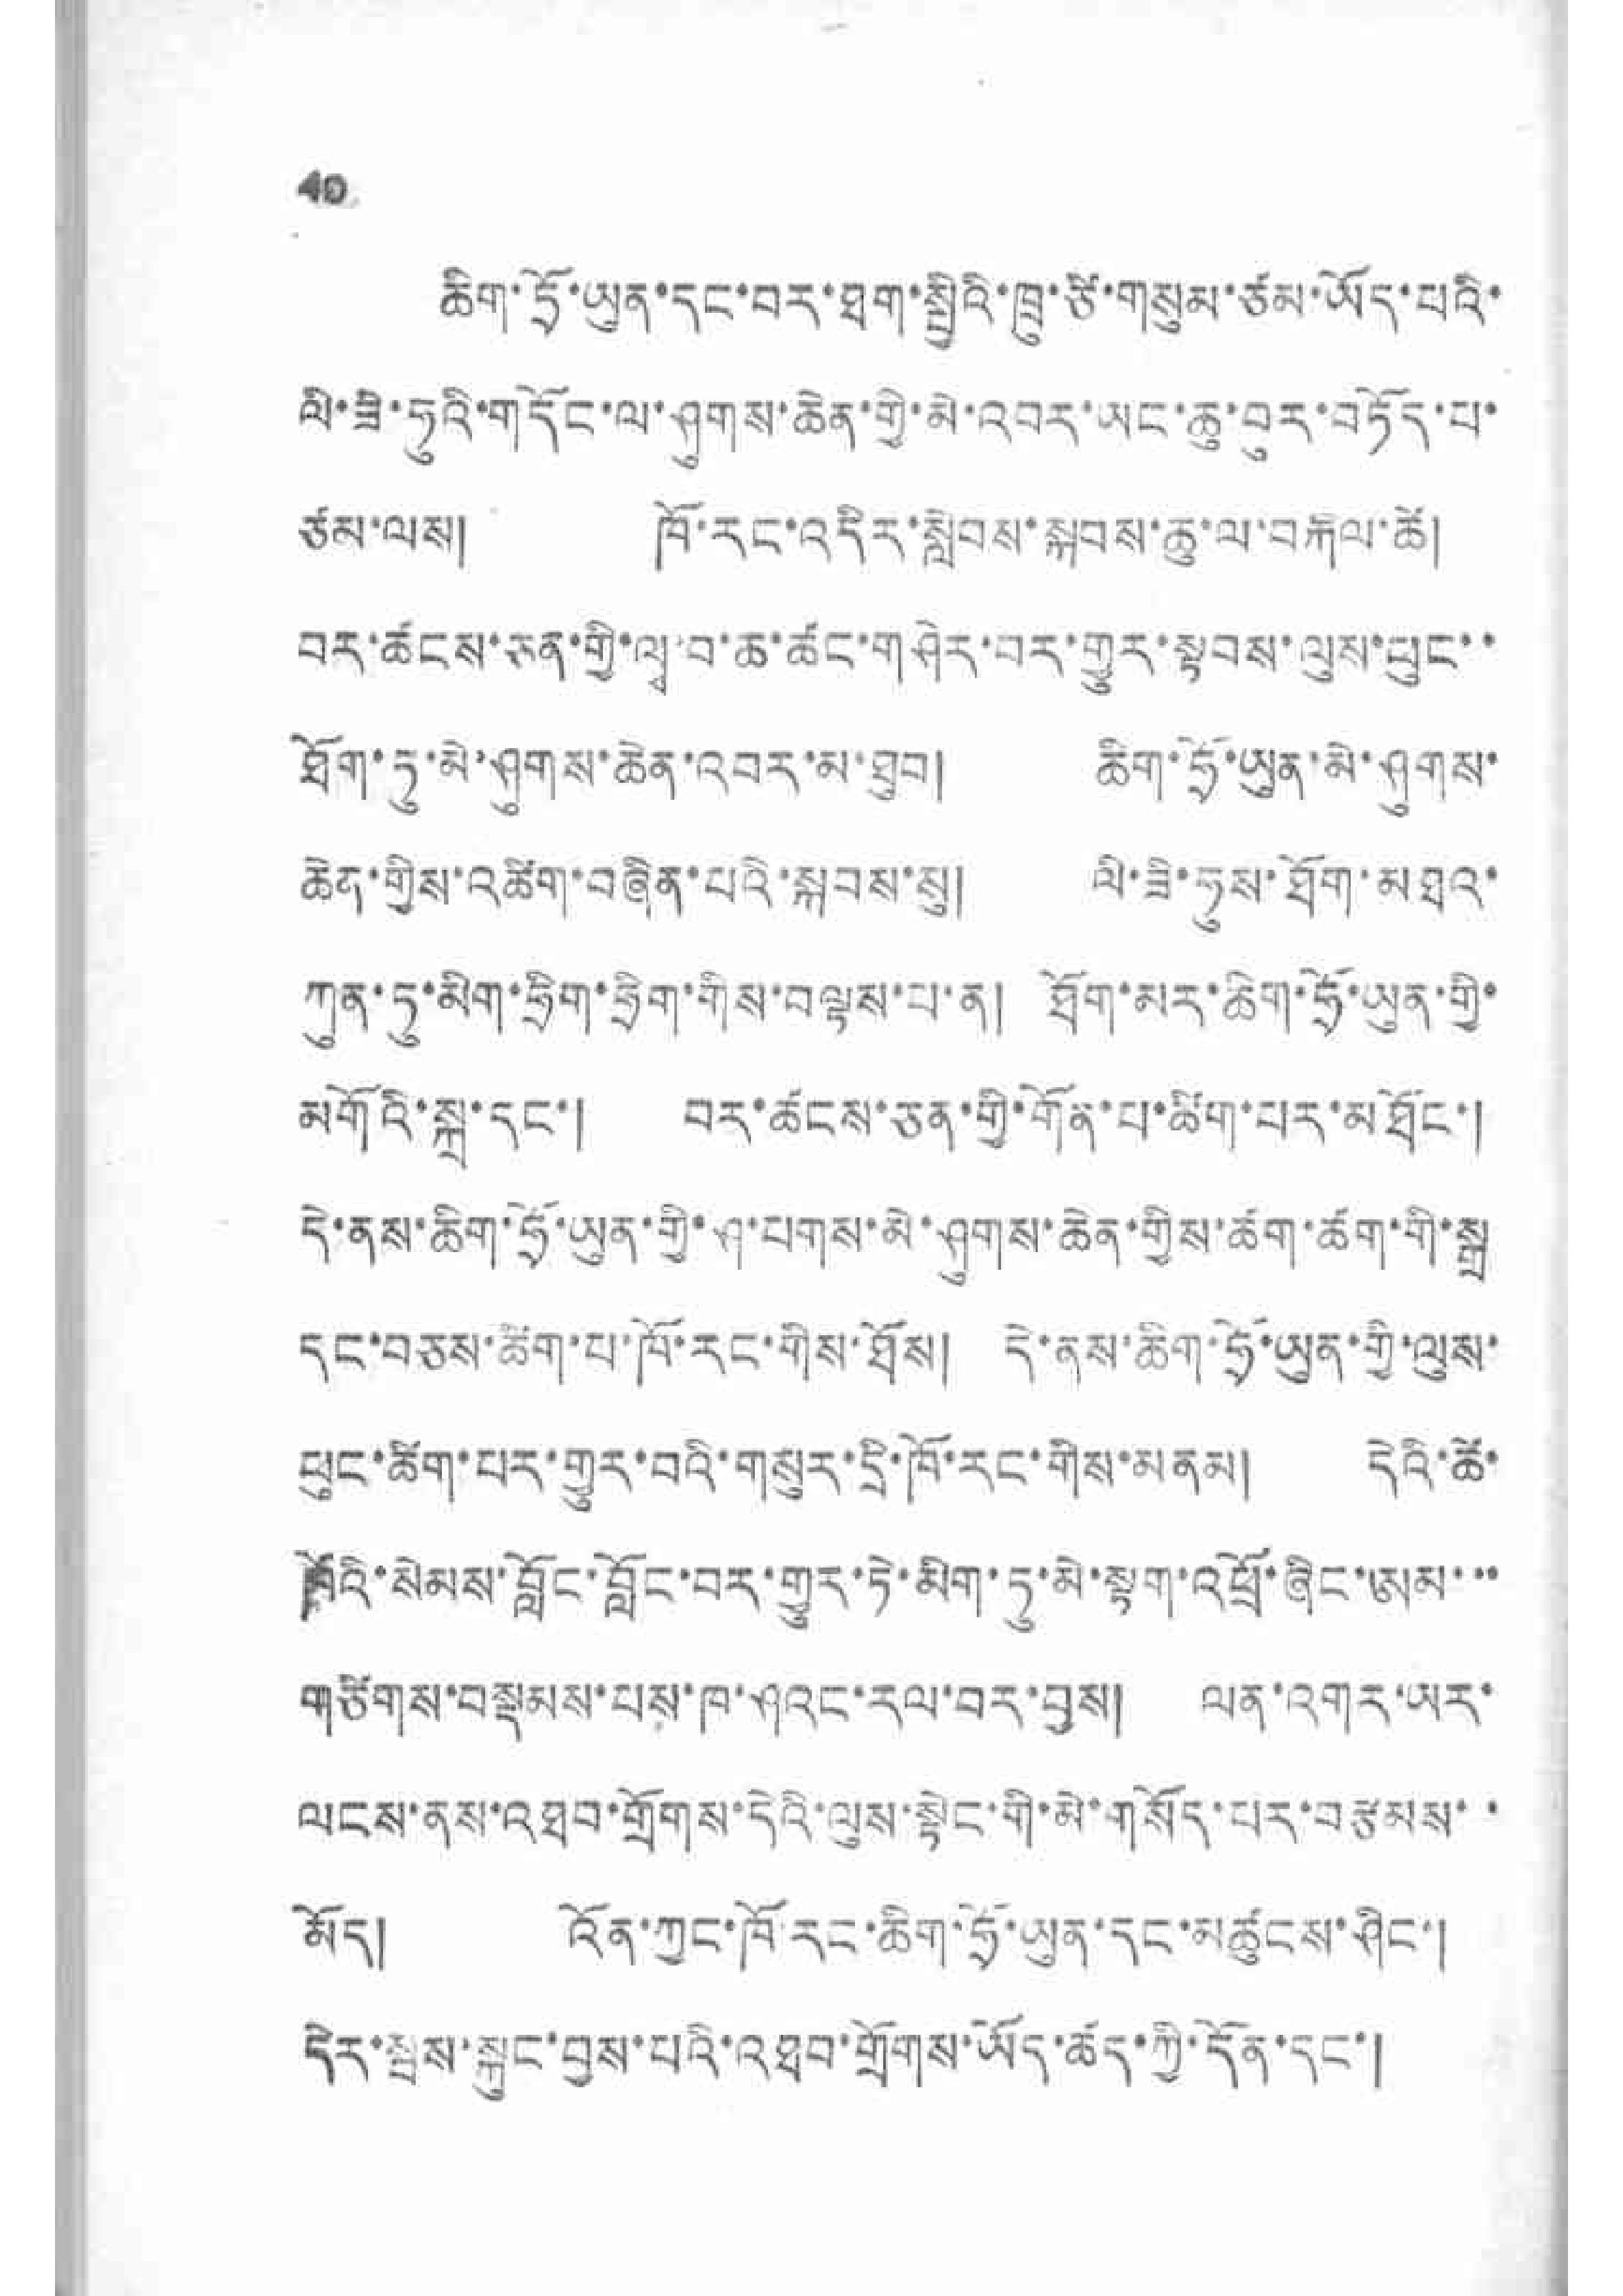40
ཆིག་ཧྲོ་ཡུན་དང་བར་ཐག་སྤྱིའི་ཁྲུ་ཙི་གསུམ་ཙམ་ཡོད་པའི་
ལི་ཟི་ཧུའི་གདོང་ལ་ཤུགས་ཆེན་གྱི་མེ་འབར་ཡང་ཆུ་བུར་བཏོད་པ་
ཙམ་ལས། ཁོ་རང་འདིར་སླེབས་སྐབས་ཆུ་ལ་བརྐལ་ཚེ།
བར་ཚངས་ཅན་གྱི་ལྭ་བ་ཆ་ཚང་གཤེར་བར་གྱུར་སྟབས་ལུམ་ཕུང་་
ཐོག་ཏུ་མེ་ཤུགས་ཆེན་འབར་མ་ཐུབ། ཆིག་ཧྲོ་ཡུན་མེ་ཤུགས་
ཆེན་གྱིས་འཚིག་བཞིན་པའི་སྐབས་སུ། ལི་ཟི་ཧུས་ཐོག་མཐའ་
ཀུན་ཏུ་མིག་ཧྲིག་ཧྲིག་གིས་བལྟས་པ་ན། ཐོག་མར་ཆིག་ཧྲོ་ཡུན་གྱི་
མགོའི་སྐྲ་དང་། བར་ཚངས་ཅན་གྱི་གོན་པ་ཚིག་པར་མཐོང་།
དེ་ནས་ཆིག་ཧྲོ་ཡུན་གྱི་ཤ་པགས་མེ་ཤུགས་ཆེན་གྱིས་ཚག་ཆཚག་གི་སྒྲ
དང་བཅས་ཚིག་པ་ཁོ་རང་གིས་ཐོས། དེ་ནས་ཆིག་ཧྲོ་ཡུན་གྱི་ལུས་
ཕུང་ཚིག་པར་གྱུར་བའི་གསུར་དྲི་ཁོ་རང་གིས་མནམ། དེའི་ཚེ་
ཁོའི་སེམས་བློང་བློང་བར་གྱུར་ཏེ་མིག་ཏུ་མེ་སྟག་འཕྲོ་ཞིང་ཨམ་་་
གཙིགས་བསྡམས་པས་ཁ་ཤའང་རལ་བར་བྱས། ལན་འགར་ཡར་
ལངས་ནས་འཐབ་གྲོགས་དེའི་ལུས་སྟེང་གི་མེ་གསོད་པར་བརྩམས་་
མོད། འོན་ཀྱང་ཁོ་རང་ཆིག་ཧྲོ་ཡུན་དང་མཚུངས་ཤིང་།
དེར་སྦས་སྐུང་བྱས་པའི་འཐབ་གྲོགས་ཡོད་ཚད་ཀྱི་དོན་དང་།
